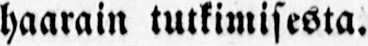haarain tutkimisesta.
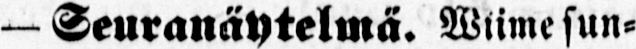— Seuranäytelmä. Viime sun-
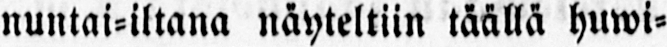nuntai-iltana näyteltiin täällä huwi-
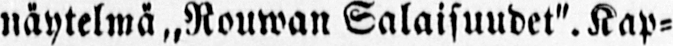näytelmä „Rouwan Salaisuudet". Kap-
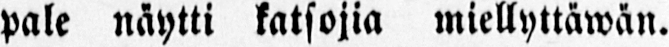pale näytti katsojia miellyttäwän.
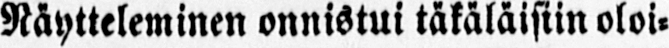Näytteleminen onnistui täkäläisiin oloi-
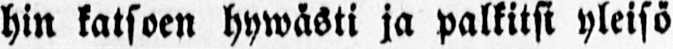hin katsoen hywästi ja palkitsi yleisö
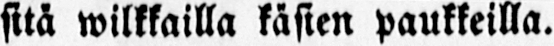sitä wilkkailla käsien paukkeilla.
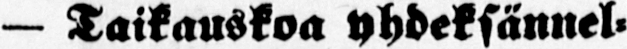— Taikauskoa yhdeksännel-
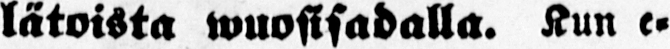lätoista wuosisadalla. Kun e-
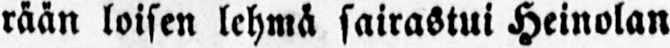rään loisen lehmä sairastui Heinolan
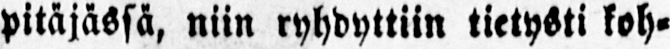pitäjässä, niin ryhdyttiin tietysti koh-
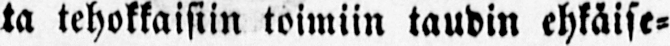ta tehokkaisiin toimiin taudin ehkäise-
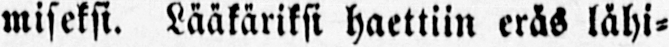miseksi. Lääkäriksi haettiin eräs lähi-
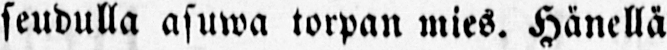seudulla asuwa torpan mies. Hänellä
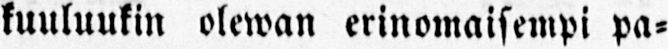kuuluukin olewan erinomaisempi pa-
